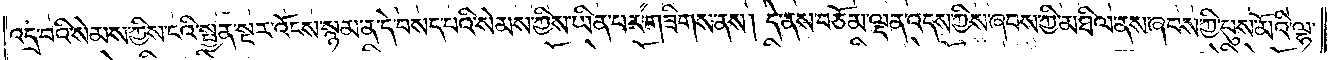འདྲ་བའི་སེམས་ཀྱིས་ངའི་སྤྱན་སྔར་འོངས་སྙམ་ན་དེ་བསད་པའི་སེམས་ཀྱིས་ཡིན་པར་གཟིགས་ནས། དེ་ནས་བཅོམ་ལྡན་འདས་ཀྱིས་ཞབས་ཀྱི་མཐིལ་ནས་ཞབས་ཀྱི་པུས་མོའི་ལྷ་
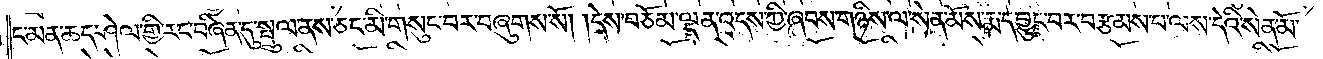ང་མན་ཆད་ཤེལ་གྱི་རང་བཞིན་དུ་སྤྲུལ་ནས་ཅང་མི་གསུང་བར་བཞུགས་སོ། །དེས་བཅོམ་ལྡན་འདས་ཀྱི་ཞབས་གཉིས་ལ་སེན་མོས་རྨད་བྱུང་བར་བརྩམས་པ་ལས་དེའི་སེན་མོ་
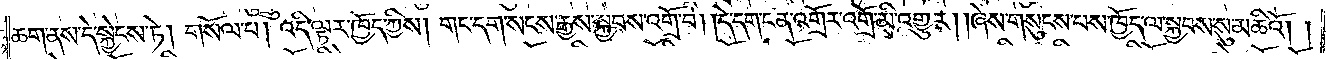ཆག་ནས་དེ་སྐྱེངས་ཏེ། གསོལ་པ། འདི་ལྟར་ཁྱོད་ཀྱིས། གང་དག་སངས་རྒྱས་སྐྱབས་འགྲོ་བ། །དེ་དག་ངན་འགྲོར་འགྲོ་མི་འགྱུར། །ཞེས་གསུངས་པས་ཁྱོད་ལ་སྐྱབས་སུ་མཆིའོ། །
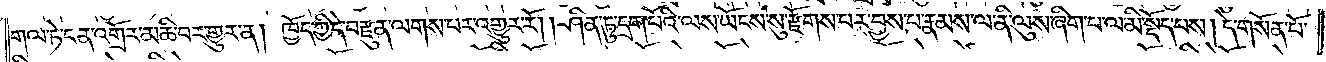གལ་ཏེ་ངན་འགྲོར་མཆི་བར་གྱུར་ན། ཁྱོད་ཀྱི་དེ་བརྫུན་ལགས་པར་འགྱུར་རོ། །ཤིན་ཏུ་དྲག་པོའི་ལས་ཡོངས་སུ་རྫོགས་པར་བྱས་པ་རྣམས་ལ་ནི་ལུས་ཞིག་པ་ལ་མི་སྡོད་པས། དེ་གསོན་པོ་
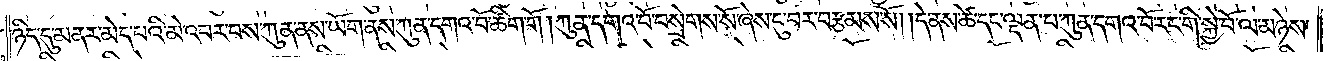ཉིད་དུ་མནར་མེད་པའི་མེ་འབར་བས་ཀུན་ནས་ཡོག་ནས་ཀུན་དགའ་བོ་ཚིག་གོ །ཀུན་དགའ་བོ་བསྲེགས་སོ་ཞེས་དུ་བར་བརྩམས་སོ། །དེ་ནས་ཚེ་དང་ལྡན་པ་ཀུན་དགའ་བོ་རང་གི་སྐྱེ་བོ་ལ་མཉེས་
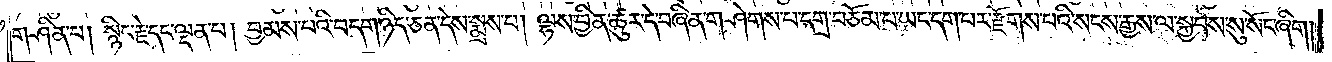གཤིན་པ། སྙིང་རྗེ་དང་ལྡན་པ། བྱམས་པའི་བདག་ཉིད་ཅན་དེས་སྨྲས་པ། ལྷས་བྱིན་ཚུར་དེ་བཞིན་གཤེགས་པ་དགྲ་བཅོམ་པ་ཡང་དག་པར་རྫོགས་པའི་སངས་རྒྱས་ལ་སྐྱབས་སུ་སོང་ཞིག།
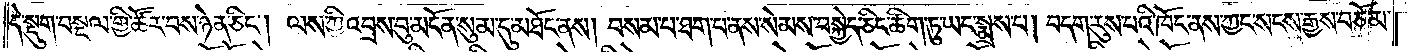དེ་སྡུག་བསྔལ་གྱི་ཚོར་བས་ཉེན་ཅིང༌། ལས་ཀྱི་འབྲས་བུ་མངོན་སུམ་དུ་མཐོང་ནས། བསམ་པ་ཐག་པ་ནས་སེམས་བསྐྱེད་ཅིང་ཚིག་ཏུ་ཡང་སྨྲས་པ། བདག་རུས་པའི་ཁོང་ནས་ཀྱང་སངས་རྒྱས་བཅོམ་
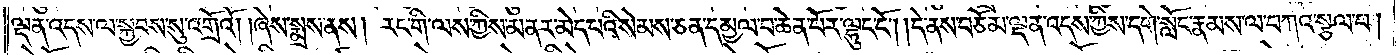ལྡན་འདས་ལ་སྐྱབས་སུ་འགྲོའོ། །ཞེས་སྨྲས་ནས། རང་གི་ལས་ཀྱིས་མནར་མེད་པའི་སེམས་ཅན་དམྱལ་བ་ཆེན་པོར་ལྷུང་ངོ༌། །དེ་ནས་བཅོམ་ལྡན་འདས་ཀྱིས་དགེ་སློང་རྣམས་ལ་བཀའ་སྩལ་པ།
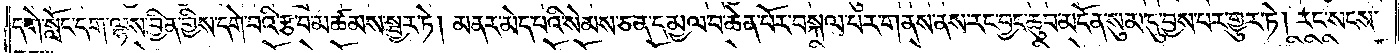དགེ་སློང་དག་ལྷས་བྱིན་གྱིས་དགེ་བའི་རྩ་བ་མཚམས་སྦྱར་ཏེ། མནར་མེད་པའི་སེམས་ཅན་དམྱལ་བ་ཆེན་པོར་བསྐལ་པར་གནས་ནས་རང་བྱང་ཆུབ་མངོན་སུམ་དུ་བྱས་པར་གྱུར་ཏེ། རང་སངས་
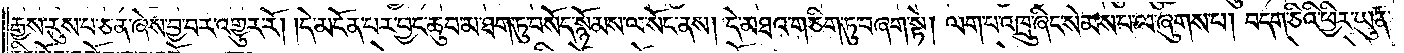རྒྱས་རུས་པ་ཅན་ཞེས་བྱ་བར་འགྱུར་རོ། །དེ་མངོན་པར་བྱང་ཆུབ་མ་ཐག་ཏུ་བསོད་སྙོམས་ལ་སོང་ནས། དེ་མཐའ་གཅིག་ཏུ་བཞག་སྟེ། ལག་པ་འཁྲུ་ཞིང་སེམས་པ་ལ་ཞུགས་པ། བདག་ཅིའི་ཕྱིར་ཡུན་
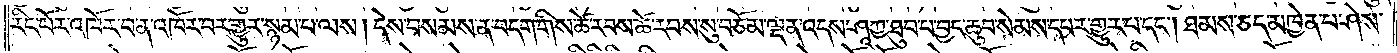རིང་པོར་འཁོར་བ་ན་འཁོར་བར་གྱུར་སྙམ་པ་ལས། དེས་བསམས་ན་བདག་གིས་ཚེ་རབས་ཚེ་རབས་སུ་བཅོམ་ལྡན་འདས་ཤཱཀྱ་ཐུབ་པ་བྱང་ཆུབ་སེམས་དཔར་གྱུར་པ་དང༌། ཐམས་ཅད་མཁྱེན་པ་ཤེས་
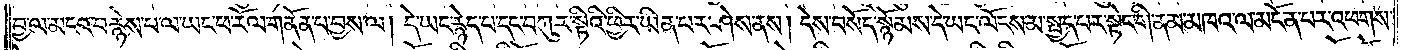བྱ་ལ་མངའ་བརྙེས་པ་ལ་ཡང་ཕ་རོལ་གནོན་པ་བྱས་ལ། དེ་ཡང་རྙེད་པ་དང་བཀུར་སྟིའི་ཕྱིར་ཡིན་པར་ཤེས་ནས། དེས་བསོད་སྙོམས་དེ་ཡང་ལོངས་མ་སྤྱད་པར་སྟེང་གི་ནམ་མཁའ་ལ་མངོན་པར་འཕགས་
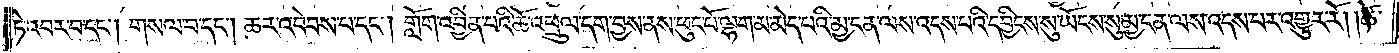ཏེ་བར་བ་དང༌། གསལ་བ་དང༌། ཆར་འབེབས་པ་དང༌། གློག་འབྱིན་པའི་ཆོ་འཕྲུལ་དག་བྱས་ནས་ཕུང་པོ་ལྷག་མ་མེད་པའི་མྱ་ངན་ལས་འདས་པའི་དབྱིངས་སུ་ཡོངས་སུ་མྱ་ངན་ལས་འདས་པར་འགྱུར་རོ། །ཚེ་
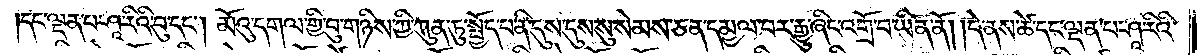།དང་ལྡན་པ་ཤཱ་རིའི་བུ་དང༌། མོའུ་དགལ་གྱི་བུ་གཉིས་ཀྱི་ཀུན་ཏུ་སྤྱོད་པ་ནི་དུས་དུས་སུ་སེམས་ཅན་དམྱལ་བར་རྒྱུ་ཞིང་འགྲོ་བ་ཡིན་ནོ། །དེ་ནས་ཚེ་དང་ལྡན་པ་ཤཱ་རིའི་
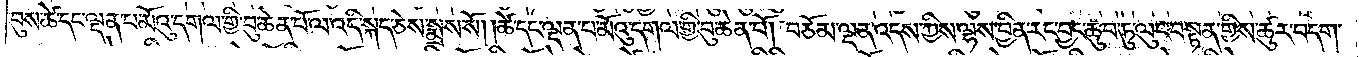བུས་ཚེ་དང་ལྡན་པ་མོའུ་དགལ་གྱི་བུ་ཆེན་པོ་ལ་འདི་སྐད་ཅེས་སྨྲས་སོ། །ཚེ་དང་ལྡན་པ་མོའུ་དགལ་གྱི་བུ་ཆེན་པོ། བཅོམ་ལྡན་འདས་ཀྱིས་ལྷས་བྱིན་རང་བྱང་ཆུབ་ཏུ་ལུང་བསྟན་གྱིས་ཚུར་བདག་
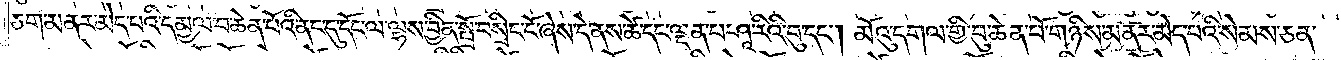ཅག་མནར་མེད་པའི་དམྱལ་བ་ཆེན་པོའི་ནང་དུ་དོང་ལ་ལྷས་བྱིན་སྤྲོ་བསྲིང་ངོ་ཞེས་དེ་ནས་ཚེ་དང་ལྡན་པ་ཤཱ་རིའི་བུ་དང༌། མོའུ་དགལ་གྱི་བུ་ཆེན་པོ་གཉིས་མནར་མེད་པའི་སེམས་ཅན་
